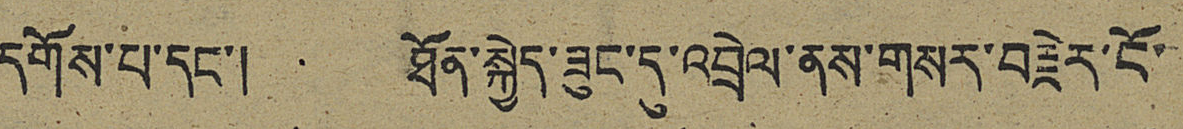དགོས་པ་དང་། ཐོན་སྐྱེད་ཟུང་དུ་འབྲེལ་ནས་གསར་བརྗེར་ངོ་
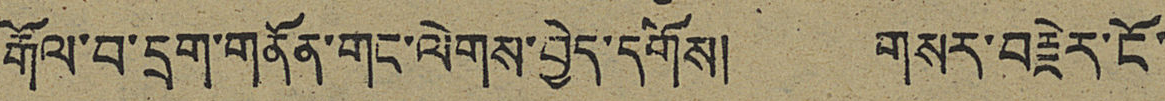རྒོལ་བ་དྲག་གནོན་གང་ལེགས་བྱེད་དགོས། གསར་བརྗེར་ངོ་
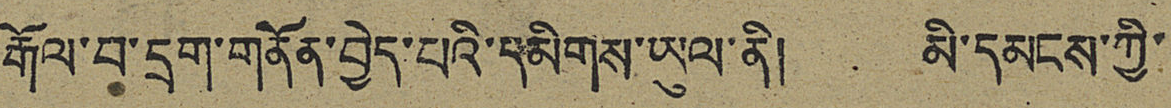རྒོལ་བ་དྲག་གནོན་བྱེད་པའི་དམིགས་ཡུལ་ནི། མི་དམངས་ཀྱི་
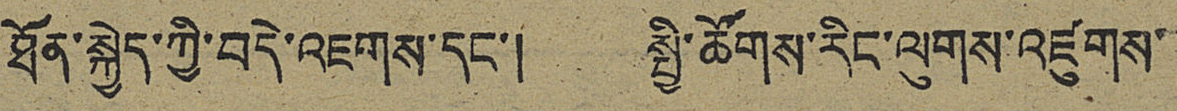ཐོན་སྐྱེད་ཀྱི་བདེ་འཇགས་དང་། སྤྱི་ཚོགས་རིང་ལུགས་འཛུགས་
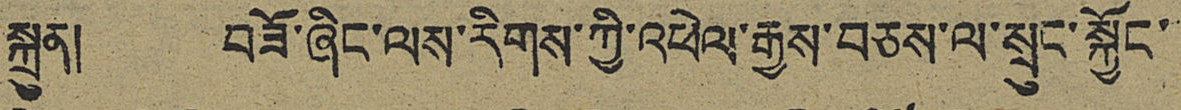སྐྲུན། བཟོ་ཞིང་ལས་རིགས་ཀྱི་འཕེལ་རྒྱས་བཅས་ལ་སྲུང་སྐྱོང་
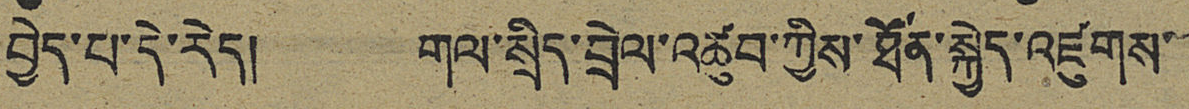བྱེད་པ་དེ་རེད། གལ་སྲིད་བྲེལ་འཚུབ་ཀྱིས་ཐོན་སྐྱེད་འཛུགས་
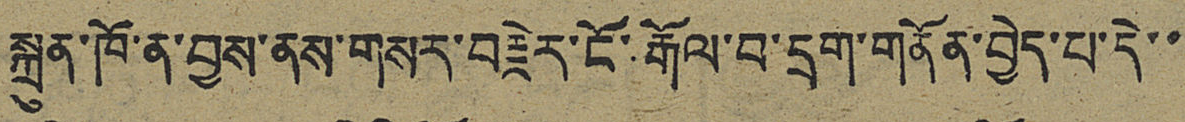སྐྲུན་ཁོ་ན་བྱས་ནས་གསར་བརྗེར་ངོ་རྒོལ་བ་དྲག་གནོན་བྱེད་པ་དེ་་
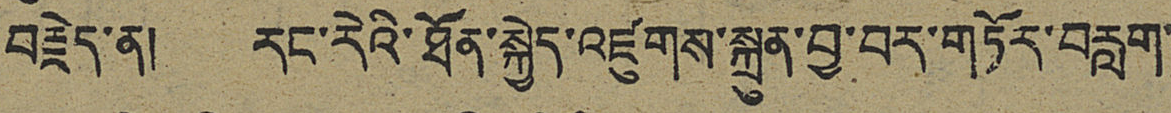བརྗེད་ན། རང་རེའི་ཐོན་སྐྱེད་འཛུགས་སྐྲུན་བྱ་བར་གཏོར་བརླག་
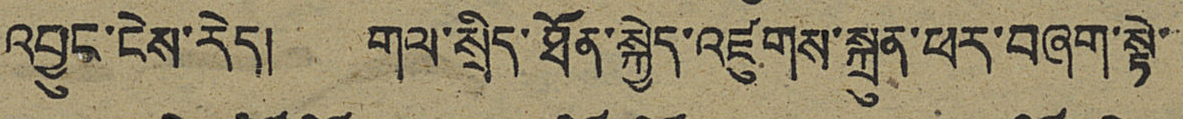འབྱུང་ངེས་རེད། གལ་སྲིད་ཐོན་སྐྱེད་འཛུགས་སྐྲུན་ཕར་བཞག་སྟེ་
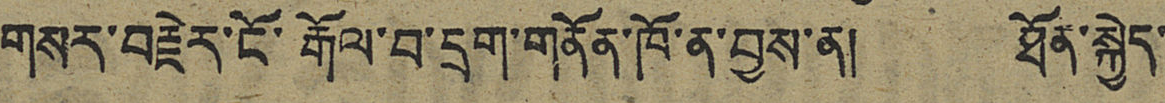གསར་བརྗེར་ངོ་རྒོལ་བ་དྲག་གནོན་ཁོ་ན་བྱས་ན། ཐོན་སྐྱེད་
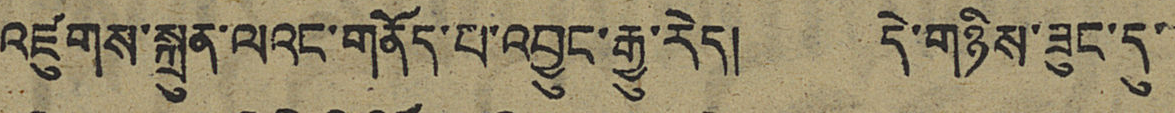འཛུགས་སྐྲུན་ལའང་གནོད་པ་འབྱུང་རྒྱུ་རེད། དེ་གཉིས་ཟུང་དུ་
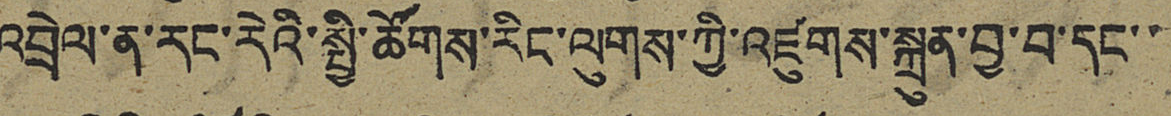འབྲེལ་ན་རང་རེའི་སྤྱི་ཚོགས་རིང་ལུགས་ཀྱི་འཛུགས་སྐྲུན་བྱ་བ་དང་་
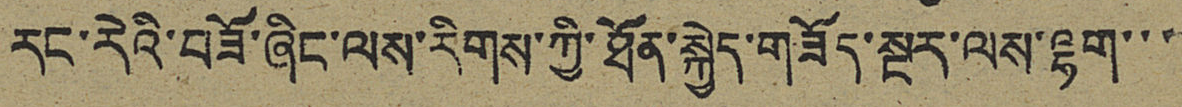རང་རེའི་བཟོ་ཞིང་ལས་རིགས་ཀྱི་ཐོན་སྐྱེད་གཟོད་སྔར་ལས་ལྷག་་་
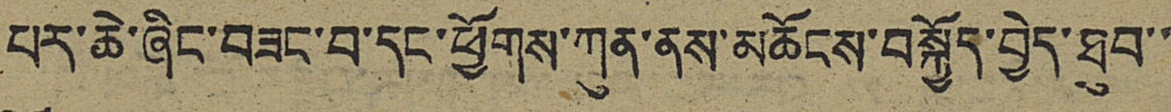པར་ཆེ་ཞིང་བཟང་བ་དང་ཕྱོགས་ཀུན་ནས་མཆོངས་བསྐྱོད་བྱེད་ཐུབ་་
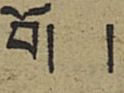བོ། །
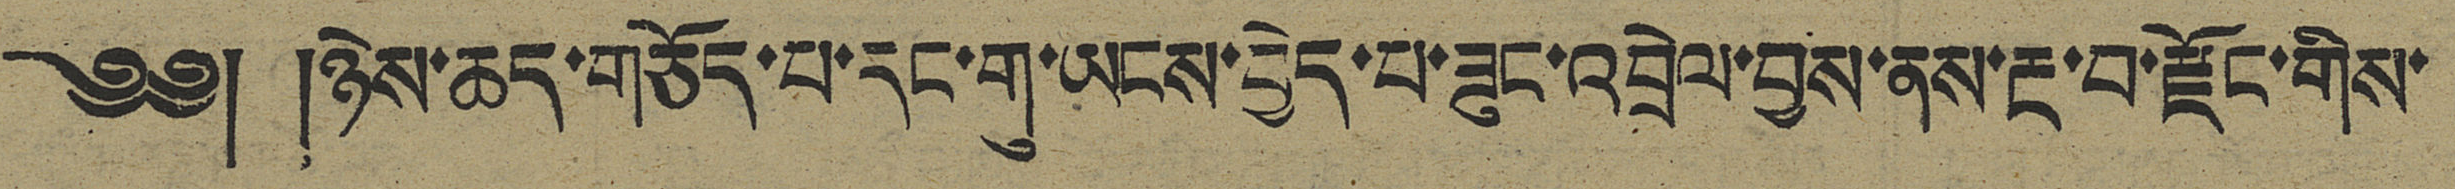༄༅། །ཉེས་ཆད་གཅོད་པ་དང་གུ་ཡངས་བྱེད་པ་ཟུང་འབྲེལ་བྱས་ནས་རྔ་བ་རྫོང་གིས་
